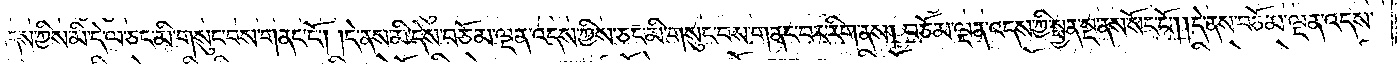འདས་ཀྱིས་མི་དེ་ལ་ཅང་མི་གསུང་བས་གནང་ངོ༌། །དེ་ནས་མི་དེས་བཅོམ་ལྡན་འདས་ཀྱིས་ཅང་མི་གསུང་བས་གནང་བར་རིག་ནས། བཅོམ་ལྡན་འདས་ཀྱིས་སྤྱན་སྔ་ནས་སོང་ངོ༌། །དེ་ནས་བཅོམ་ལྡན་འདས་
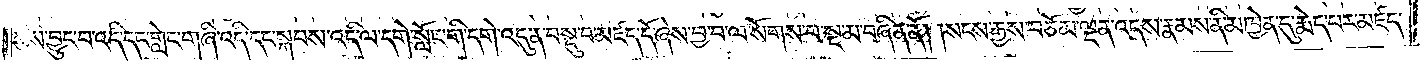ཀྱིས་བྱུང་བ་འདི་དང་གླེང་གཞི་འདི་དང་སྐབས་འདི་ལ་དགེ་སློང་གི་དགེ་འདུན་བསྡུ་བ་མཛད་དོ་ཞེས་བྱ་བ་ལ་སོགས་པ་སྔ་མ་བཞིན་ནོ། །སངས་རྒྱས་བཅོམ་ལྡན་འདས་རྣམས་ནི་མཁྱེན་དུ་རྨེད་པར་མཛད་
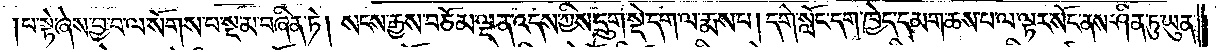པ་སྟེ་ཞེས་བྱ་བ་ལ་སོགས་པ་སྔ་མ་བཞིན་ཏེ། སངས་རྒྱས་བཅོམ་ལྡན་འདས་ཀྱིས་དྲུག་སྡེ་དག་ལ་རྨས་པ། དགེ་སློང་དག་ཁྱེད་དམག་ཆས་པ་ལ་ལྟར་སོང་ནས་ཤིན་ཏུ་ཡུན་
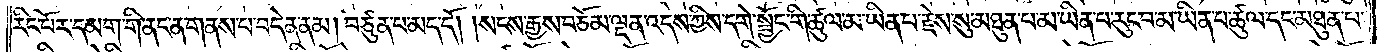རིང་པོར་དམག་གི་ནང་ན་གནས་པ་བདེན་ནམ། བཙུན་པ་མད་དོ། །སངས་རྒྱས་བཅོམ་ལྡན་འདས་ཀྱིས་དགེ་སྦྱོང་གི་ཚུལ་མ་ཡིན་པ་རྗེས་སུ་མཐུན་པ་མ་ཡིན་པ་རུང་བ་མ་ཡིན་པ་ཚུལ་དང་མཐུན་པ་
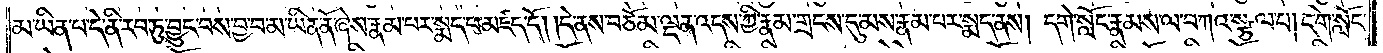མ་ཡིན་པ་དེ་ནི་རབ་ཏུ་བྱུང་བས་བྱ་བ་མ་ཡིན་ནོ་ཞེས་རྣམ་པར་སྨད་པ་མཛད་དོ། །དེ་ནས་བཅོམ་ལྡན་འདས་ཀྱི་རྣམ་གྲངས་དུ་མས་རྣམ་པར་སྨད་ནས། དགེ་སློང་རྣམས་ལ་བཀའ་སྩལ་པ། དགེ་སློང་
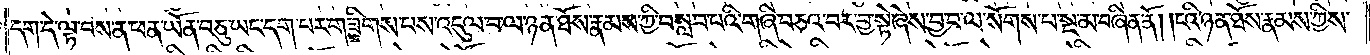དག་དེ་ལྟ་བས་ན་ཕན་ཡོན་བཅུ་ཡང་དག་པར་གཟིགས་པས་འདུལ་བ་ལ་ཉན་ཐོས་རྣམས་ཀྱི་བསླབ་པའི་གཞི་བཅའ་བར་བྱ་སྟེ་ཞེས་བྱ་བ་ལ་སོགས་པ་སྔ་མ་བཞིན་ནོ། །ངའི་ཉན་ཐོས་རྣམས་ཀྱིས་
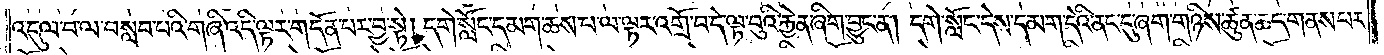འདུལ་བ་ལ་བསླབ་པའི་གཞི་འདི་ལྟར་གདོན་པར་བྱ་སྟེ། དགེ་སློང་དམག་ཆས་པ་ལ་ལྟར་འགྲོ་བ་དེ་ལྟ་བུའི་རྐྱེན་ཞིག་བྱུང་ན། དགེ་སློང་དེས་དམག་དེའི་ནང་དུ་ཞག་གཉིས་ཚུན་ཆད་གནས་པར་
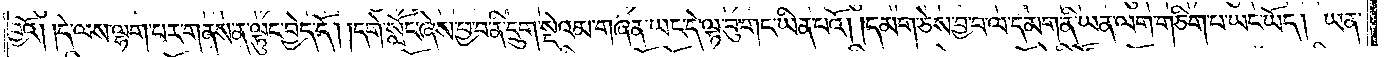བྱའོ། །དེ་ལས་ལྷག་པར་གནས་ན་ལྟུང་བྱེད་དོ། །དགེ་སློང་ཞེས་བྱ་བ་ནི་དྲུག་སྡེའམ་གཞན་ཡང་དེ་ལྟ་བུ་གང་ཡིན་པའོ། །དམག་ཅེས་བྱ་བ་ལ་དམག་ནི་ཡན་ལག་གཅིག་པ་ཡང་ཡོད། ཡན་
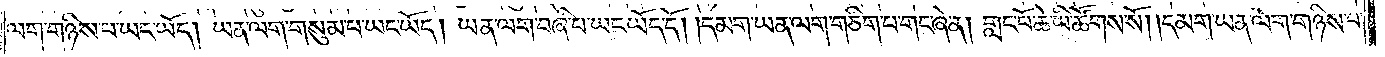ལག་གཉིས་པ་ཡང་ཡོད། ཡན་ལག་གསུམ་པ་ཡང་ཡོད། ཡན་ལག་བཞི་པ་ཡང་ཡོད་དོ། །དམག་ཡན་ལག་གཅིག་པ་གང་ཞེ་ན། གླང་པོ་ཆེ་ཡི་ཚོགས་སོ། །དམག་ཡན་ལག་གཉིས་པ་
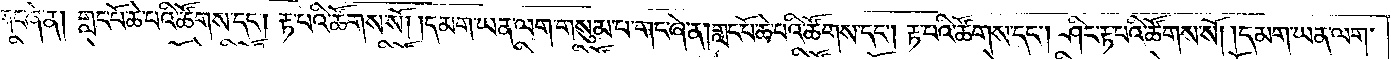གང་ཞེ་ན། གླང་པོ་ཆེ་པའི་ཚོགས་དང༌། རྟ་པའི་ཚོགས་སོ། །དམག་ཡན་ལག་གསུམ་པ་གང་ཞེ་ན། གླང་པོ་ཆེ་པའི་ཚོགས་དང༌། རྟ་པའི་ཚོགས་དང༌། ཤིང་རྟ་པའི་ཚོགས་སོ། །དམག་ཡན་ལག་
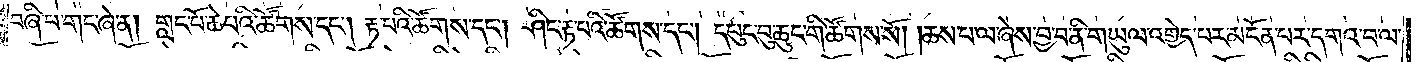བཞི་པ་གང་ཞེ་ན། གླང་པོ་ཆེ་པའི་ཚོགས་དང༌། རྟ་པའི་ཚོགས་དང༌། ཤིང་རྟ་པའི་ཚོགས་དང༌། དཔུང་བུ་ཆུང་གི་ཚོགས་སོ། །ཆས་པ་ལ་ཞེས་བྱ་བ་ནི་གཡུལ་འགྱེད་པར་མངོན་པར་དགའ་བ་ལ་
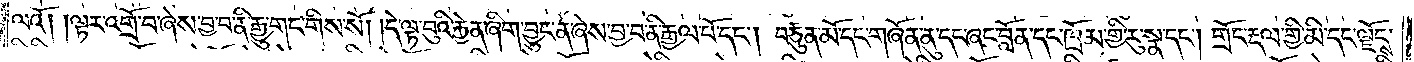ལའོ། །ལྟར་འགྲོ་བ་ཞེས་བྱ་བ་ནི་རྒྱུ་གང་གིས་སོ། །དེ་ལྟ་བུའི་རྐྱེན་ཞིག་བྱུང་ན་ཞེས་བྱ་བ་ནི་རྒྱལ་པོ་དང༌། བཅུན་མོ་དང་གཞོན་ནུ་དང་ཞང་བློན་དང་ཁྲོམ་གྱི་རུ་སྣ་དང༌། གྲོང་རྡལ་གྱི་མི་དང་ལྗོངས་
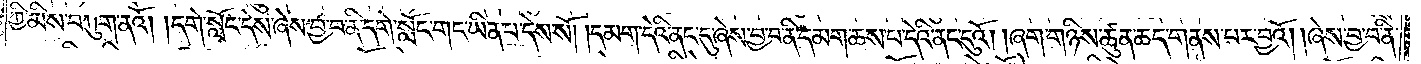ཀྱི་མིས་བཀུག་ནའོ། །དགེ་སློང་དེས་ཞེས་བྱ་བ་ནི་དགེ་སློང་གང་ཡིན་པ་དེས་སོ། །དམག་དེའི་ནང་དུ་ཞེས་བྱ་བ་ནི་དམག་ཆས་པ་དེའི་ནང་དུའོ། །ཞག་གཉིས་ཚུན་ཆད་གནས་པར་བྱའོ། །ཞེས་བྱ་བ་ནི་
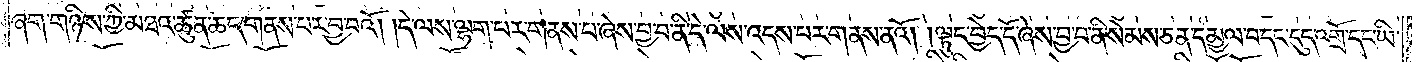ཞག་གཉིས་ཀྱི་མཐའ་ཚུན་ཆད་གནས་པར་བྱ་བའོ། །དེ་ལས་ལྷག་པར་གནས་པ་ཞེས་བྱ་བ་ནི་དེ་ལས་འདས་པར་གནས་ནའོ། །ལྟུང་བྱེད་དོ་ཞེས་བྱ་བ་ནི་སེམས་ཅན་དམྱལ་བ་དང་དུད་འགྲོ་དང་ཡི་
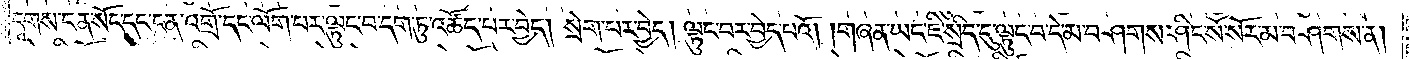དྭགས་ངན་སོང་དང་ངན་འགྲོ་དང་ལོག་པར་ལྟུང་བ་དག་ཏུ་འཚོད་པར་བྱེད། སྲེག་པར་བྱེད། ལྟུང་བར་བྱེད་པའོ། །གཞན་ཡང་ཇི་སྲིད་དུ་ལྟུང་བ་དེ་མ་བཤགས་ཤིང་སོ་སོར་མ་བཤགས་ན།
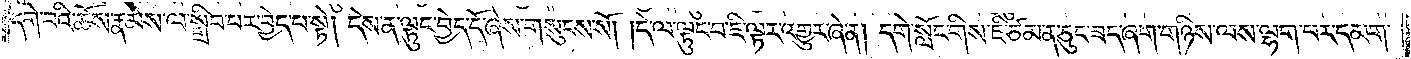དགེ་བའི་ཆོས་རྣམས་ལ་སྒྲིབ་པར་བྱེད་པ་སྟེ། དེས་ན་ལྟུང་བྱེད་དོ་ཞེས་གསུངས་སོ། །དེ་ལ་ལྟུང་བ་ཇི་ལྟར་འགྱུར་ཞེ་ན། དགེ་སློང་གིས་ཇི་ཙམ་ན་ཅུང་ཟད་ཞག་གཉིས་ལས་ལྷག་པར་དམག་
